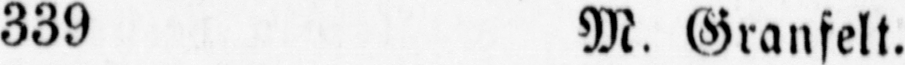339 M. Granfelt.
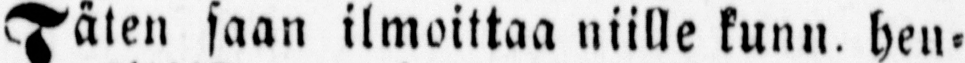Täten saan ilmoittaa niille kunn, hen-
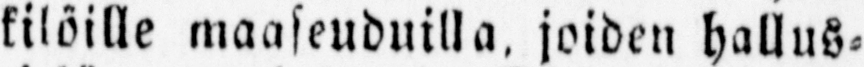kilöille maaseuduilla, joiden hallus-
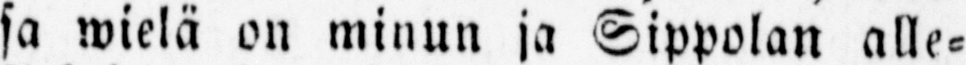sa wielä on minun ja Sippolan alle-
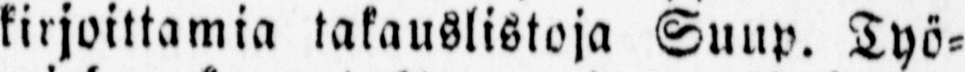kirjoittamia takauslistoja Suup. Työ-
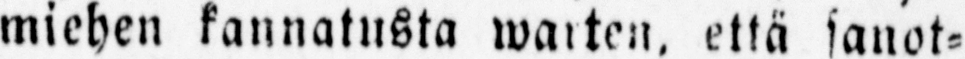miehen kannatusta warten, että sanot-
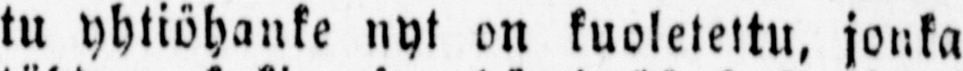tu yhtiöhanke nyt on kuoletettu, jonka
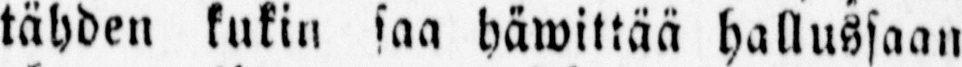tähden kukin saa häwittää hallussaan
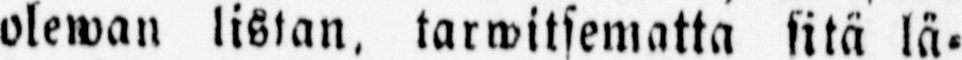olewan listan, tarwitsematta sitä lä-
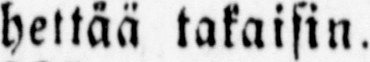hettää takaisin.
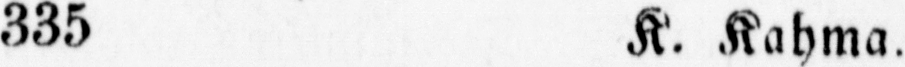335 K. Kahma.
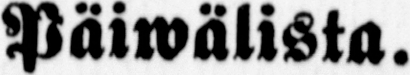Päiwälista.
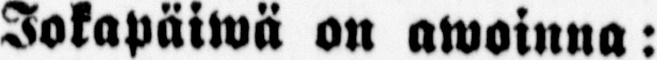Jokapäiwä on awoinna:
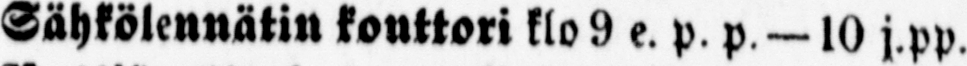Sähkölennätin konttori klo 9 e. p. p — 10 j.pp.
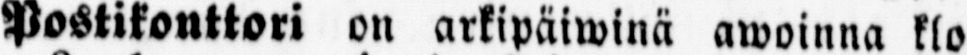Postikonttori on arkipäiwinä awoinna klo
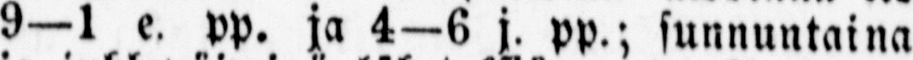9—1 e, pp. ja 4—6 j. pp.; sunnuntaina
